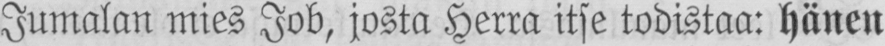Jumalan mies Job, josta Herra itse todistaa: hänen
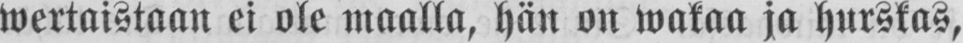wertaistaan ei ole maalla, hän on wakaa ja hurskas,
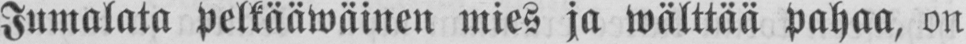Jumalata pelkääwäinen mies ja wälttää pahaa, on
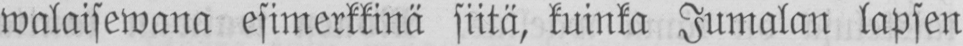walaisewana esimerkkinä siitä, kuinka Jumalan lapsen
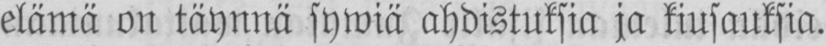elämä on täynnä sywiä ahdistuksia ja kiusauksia.
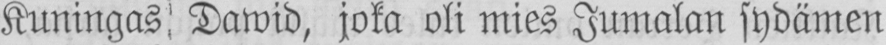Kuningas Dawid, joka oli mies Jumalan sydämen
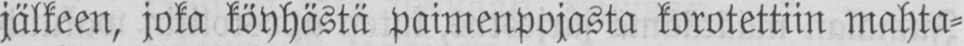jälkeen, joka köyhästä paimenpojasta korotettiin mahta-
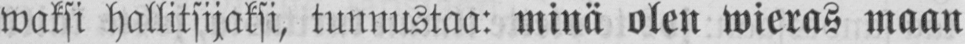waksi hallitsijaksi, tunnustaa: minä olen wieras maan
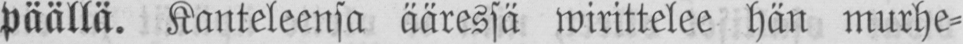päällä. Kanteleensa ääressä wirittelee hän murhe-
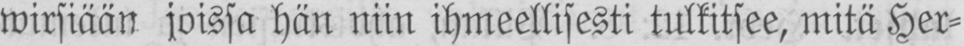wirsiään joissa hän niin ihmeellisesti tulkitsee, mitä Her-
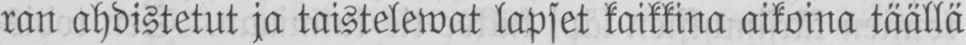ran ahdistetut ja taistelewat lapset kaikkina aikoina täällä
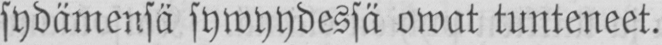sydämensä sywyydessä owat tunteneet.
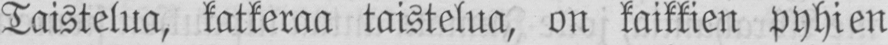Taistelua, katkeraa taistelua, on kaikkien pyhien
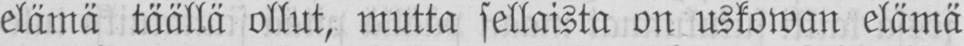elämä täällä ollut, mutta sellaista on uskowan elämä
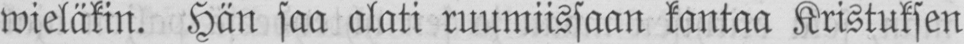wieläkin. Hän saa alati ruumiissaan kantaa Kristuksen
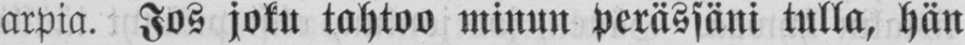arpia. Jos joku tahtoo minun perässäni tulla, hän
